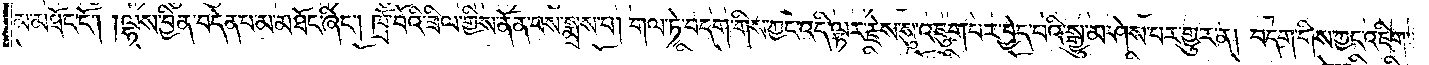མ་མཐོང་ངོ༌། །ལྷས་བྱིན་བདེན་པ་མ་མཐོང་ཞིང༌། ཁྲོ་བོའི་ཟིལ་གྱིས་ནོན་པས་སྨྲས་པ། གལ་ཏེ་བདག་གིས་ཀྱང་འདི་ལྟར་རྗེས་སུ་འཇུག་པར་བྱེད་པའི་སྒྱུ་མ་ཤེས་པར་གྱུར་ན། བདག་གིས་ཀྱང་འཇིག་
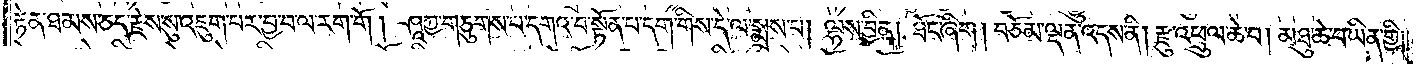རྟེན་ཐམས་ཅད་རྗེས་སུ་འཇུག་པར་བྱ་བ་ལ་རག་གོ། ཤཱཀྱ་གཅུགས་པ་དགའ་བ་སྟོན་པ་དག་གིས་དེ་ལ་སྨྲས་པ། ལྷས་བྱིན། ཐོང་ཞིག །བཅོམ་ལྡན་འདས་ནི། རྫུ་འཕྲུལ་ཆེ་བ། མཐུ་ཆེ་བ་ཡིན་གྱི།
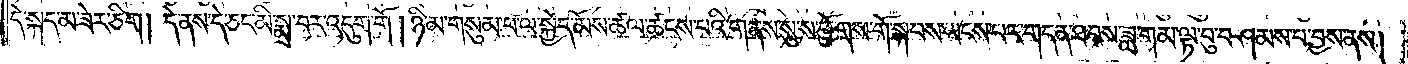དེ་སྐད་མ་ཟེར་ཅིག །དེ་ནས་དེ་ཅང་མི་སྨྲ་བར་འདུག་གོ །ཉི་མ་གསུམ་པ་ལ་སྐྱེད་མོས་ཚལ་ཚངས་པའི་གནས་སུ་ས་ཕྱོགས་གོ་སྐབས་ཡངས་པར་གདན་ཐབས་ཟླ་གམ་ལྟ་བུ་བཤམས་པ་བྱས་ནས།
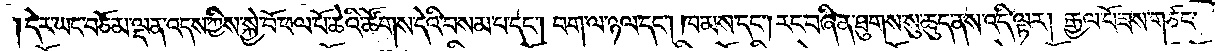དེར་ཡང་བཅོམ་ལྡན་འདས་ཀྱིས་སྐྱེ་བོ་ཕལ་པོ་ཆེའི་ཚོགས་དེའི་བསམ་པ་དང༌། བག་ལ་ཉལ་དང༌། ཁམས་དང༌། རང་བཞིན་ཐུགས་སུ་ཆུད་ནས་འདི་ལྟར། རྒྱལ་པོ་ཟས་གཙང་
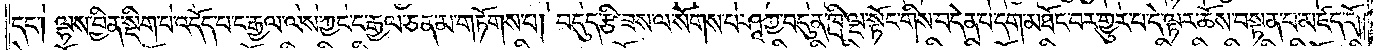དང༌། ལྷས་བྱིན་སྡིག་པ་འདོད་པ་ང་རྒྱལ་ལས་ཀྱང་ང་རྒྱལ་ཅན་མ་གཏོགས་པ། བདུད་རྩི་ཟས་ལ་སོགས་པ་ཤཱཀྱ་བདུན་ཁྲི་ལྔ་སྟོང་གིས་བདེན་པ་དག་མཐོང་བར་གྱུར་པ་དེ་ལྟར་ཆོས་བསྟན་པ་མཛད་དོ།
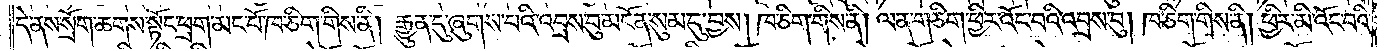དེ་ནས་སྲོག་ཆགས་སྟོང་ཕྲག་མང་པོ་ཁ་ཅིག་གིས་ནི། རྒྱུན་དུ་ཞུགས་པའི་འབྲས་བུ་མངོན་སུམ་དུ་བྱས། ཁ་ཅིག་གིས་ནི། ལན་གཅིག་ཕྱིར་འོང་བའི་འབྲས་བུ། ཁ་ཅིག་གིས་ནི། ཕྱིར་མི་འོང་བའི་
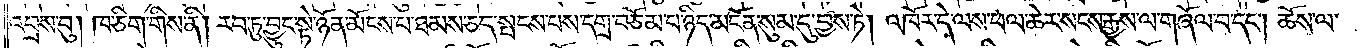འབྲས་བུ། ཁ་ཅིག་གིས་ནི། རབ་ཏུ་བྱུང་སྟེ་ཉོན་མོངས་པ་ཐམས་ཅད་སྤངས་པས་དགྲ་བཅོམ་པ་ཉིད་མངོན་སུམ་དུ་བྱས་ཏེ། འཁོར་དེ་ལས་ཕལ་ཆེར་སངས་རྒྱས་ལ་གཞོལ་བ་དང༌། ཆོས་ལ་
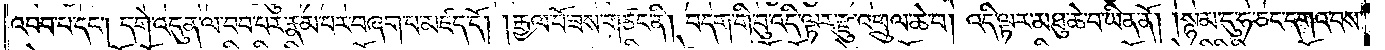འབབ་པ་དང༌། དགེ་འདུན་ལ་བབ་པར་རྣམ་པར་བཞག་པ་མཛད་དོ། །རྒྱལ་པོ་ཟས་གཙང་ནི། བདག་གི་བུ་འདི་ལྟར་རྫུ་འཕྲུལ་ཆེ་བ། འདི་ལྟར་མཐུ་ཆེ་བ་ཡིན་ནོ། །སྙམ་དུ་ཧ་ཅང་དགའ་བས་
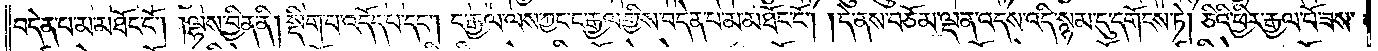བདེན་པ་མ་མཐོང་ངོ༌། །ལྷས་བྱིན་ནི། སྡིག་པ་འདོད་པ་དང༌། ང་རྒྱལ་ལས་ཀྱང་ང་རྒྱལ་གྱིས་བདེན་པ་མ་མཐོང་ངོ༌། །དེ་ནས་བཅོམ་ལྡན་འདས་འདི་སྙམ་དུ་དགོངས་ཏེ། ཅིའི་ཕྱིར་རྒྱལ་པོ་ཟས་
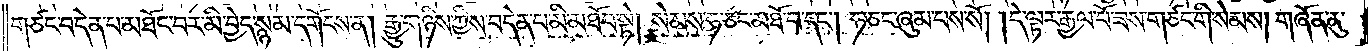གཙང་བདེན་པ་མཐོང་བར་མི་བྱེད་སྙམ་དགོངས་ན། རྒྱུ་གཉིས་ཀྱིས་བདེན་པ་མི་མཐོང་སྟེ། སེམས་ཧ་ཅང་མཐོ་བ་དང༌། ཧ་ཅང་ཞུམ་པས་སོ། །དེ་ལྟར་རྒྱལ་པོ་ཟས་གཙང་གི་སེམས། གཞོན་ནུ་
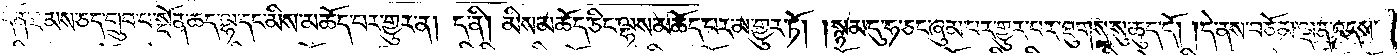དོན་ཐམས་ཅད་གྲུབ་པ་སྔོན་ཆད་ལྷ་དང་མིས་མཆོད་པར་གྱུར་ན། ད་ནི། མིས་མཆོད་ཅིང་ལྷས་མཆོད་པར་མ་གྱུར་ཏོ། །སྙམ་དུ་ཧ་ཅང་ཞུམ་པར་གྱུར་པར་ཐུགས་སུ་ཆུད་དོ། །དེ་ནས་བཅོམ་ལྡན་འདས་
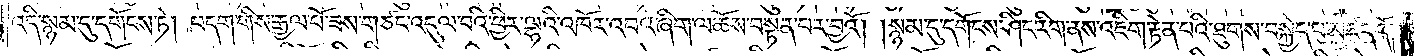འདི་སྙམ་དུ་དགོངས་ཏེ། བདག་གིས་རྒྱལ་པོ་ཟས་གཙང་འདུལ་བའི་ཕྱིར་ལྷའི་འཁོར་འབའ་ཞིག་ལ་ཆོས་བསྟན་པར་བྱའོ། །སྙམ་དུ་དགོངས་ཤིང་རིག་ནས་འཇིག་རྟེན་པའི་ཐུགས་བསྐྱེད་པ་མཛད་དོ། །
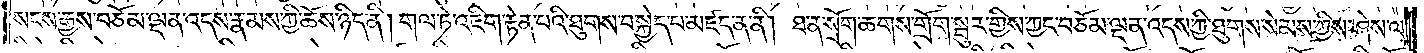སངས་རྒྱས་བཅོམ་ལྡན་འདས་རྣམས་ཀྱི་ཆོས་ཉིད་ནི། གལ་ཏེ་འཇིག་རྟེན་པའི་ཐུགས་བསྐྱེད་པ་མཛད་ན་ནི། ཐ་ན་སྲོག་ཆགས་གྲོག་སྦུར་གྱིས་ཀྱང་བཅོམ་ལྡན་འདས་ཀྱི་ཐུགས་སེམས་ཀྱིས་ཤེས་ལ།
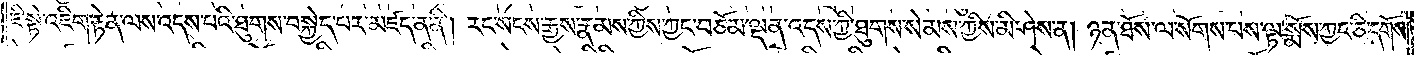ཇི་སྟེ་འཇིག་རྟེན་ལས་འདས་པའི་ཐུགས་བསྐྱེད་པར་མཛད་ན་ནི། རང་སངས་རྒྱས་རྣམས་ཀྱིས་ཀྱང་བཅོམ་ལྡན་འདས་ཀྱི་ཐུགས་སེམས་ཀྱིས་མི་ཤེས་ན། ཉན་ཐོས་ལ་སོགས་པས་ལྟ་སྨོས་ཀྱང་ཅི་དགོས་
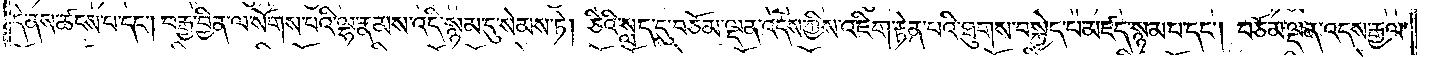དེ་ནས་ཚངས་པ་དང༌། བརྒྱ་བྱིན་ལ་སོགས་པའི་ལྷ་རྣམས་འདི་སྙམ་དུ་སེམས་ཏེ། ཅིའི་སླད་དུ་བཅོམ་ལྡན་འདས་ཀྱིས་འཇིག་རྟེན་པའི་ཐུགས་བསྐྱེད་པ་མཛད་སྙམ་པ་དང༌། བཅོམ་ལྡན་འདས་རྒྱལ་
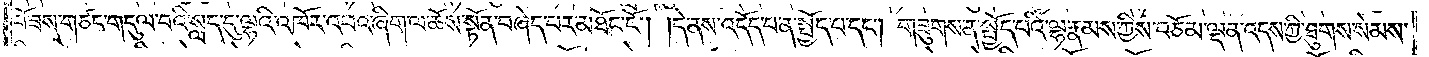པོ་ཟས་གཙང་གདུལ་བའི་སླད་དུ་ལྷའི་འཁོར་འབའ་ཞིག་ལ་ཆོས་སྟོན་བཞེད་པར་མཐོང་ངོ༌། །དེ་ནས་འདོད་པ་ན་སྤྱོད་པ་དང༌། གཟུགས་ན་སྤྱོད་པའི་ལྷ་རྣམས་ཀྱིས་བཅོམ་ལྡན་འདས་ཀྱི་ཐུགས་སེམས་
